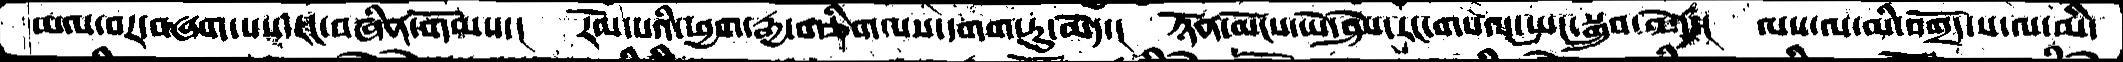ཡལ་བར་བཞག་པས་རང་བཞིན་གོམས་།  རོལ་པའི་ཕྱག་རྒྱ་གཅིག་པས་དགག་ཏུ་མེད་།  ཉོན་མོངས་ཡེ་ཤེས་རང་གསལ་སྤང་སྒྲུབ་མེད་།  ལས་ལ་མི་བགྲོད་ས་ལ་མི་
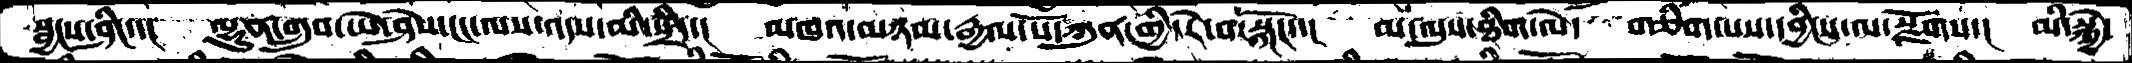སྦྱངས་ཤིང་་།  ལྷུན་གྲུབ་ཡེ་ཤེས་ངང་ལས་འདས་མི་སྲིད་།  མཁའ་མཉམ་རྒྱལ་པོ་ཀུན་གྱི་རེ་བ་སྐོང་་།  མ་ལུས་ཐིག་ལེ་  གཅིག་པས་དབྱིངས་ལ་སྫོགས་།  མི་སྐྱེ་
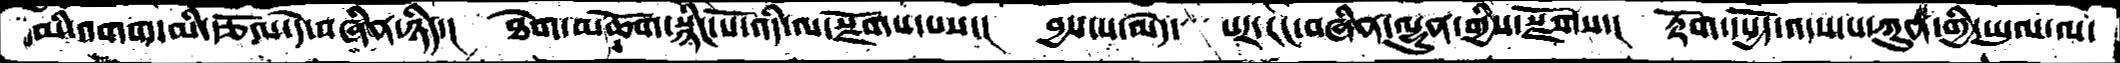མི་འགག་མི་རྩོལ་དེ་བཞིན་ཉིད་།  ཐེག་མཆོག་སྙིང་པོ་འདི་ལ་སྫོགས་པས་།  བྱས་པ་མེད་པར་རང་བཞིན་ལྷུན་གྱིས་སྫོགས་།  རྟོག་དཔྱོད་འདས་པ་ཀུན་གྱི་ཡུལ་ལ་
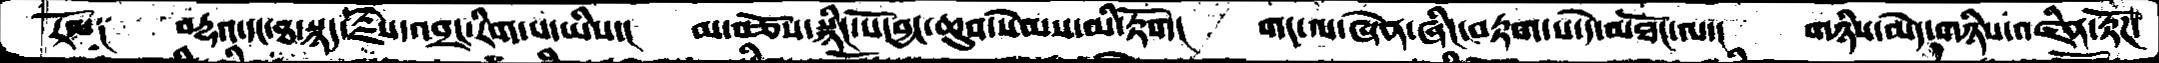རོལ༑   བརྡའ་དང་ཐ་སྙད་རྗེས་འབྲང་རིག་པ་ཡིས་།  མ་བཅོས་སྙིང་པོ་བྱང་ཆུབ་སེམས་མི་རྟོག།  གང་ལ་ཞེན་ཞིང་བརྟག་པ་དེ་མཐོང་ལ་།  གཉིས་མེད་གཉིས་འཛིན་རྟོཌ་
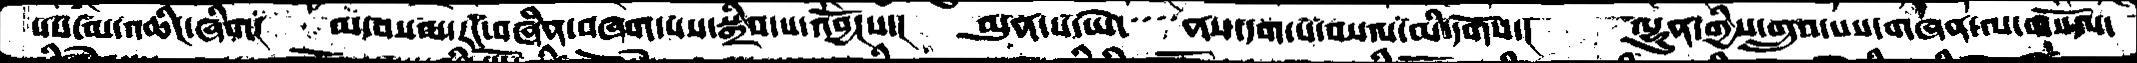པས་མ་འཆིང་ཞིག།   མ་བསམ་རང་བཞིན་བཞག་པས་སྒྲིབ་པ་འབྱོངས་།  མུན་པ་ཡེ་  ནས་དག་པ་བསལ་མི་དགོས་།  ལྷུན་གྱིས་གྲུབ་པས་གཞན་ལ་གསོལ་
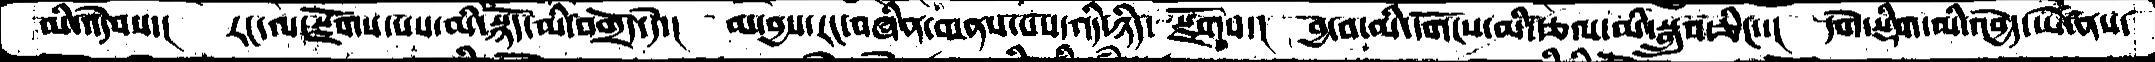མི་འདེབས་།   རང་ལ་སྫོགས་པས་མི་སྙོད་མི་བགྲོད་དེ་།  མ་བྱས་རང་བཞིན་གནས་པས་འདི་ཉིད་ སྫོགས་།  བྱ་བ་མི་དགོངས་མི་རྩལ་མི་སྒྲུབ་ཅིང་་།  དགེ་སྡིག་མི་འབྱེད་ཡེ་ནས་
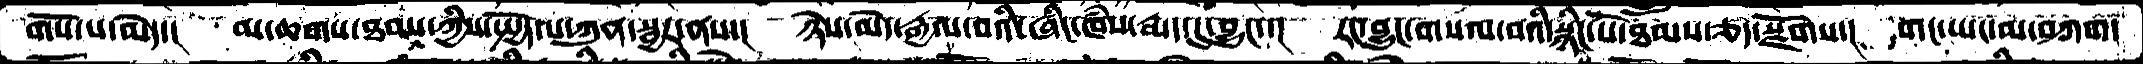གོས་པ་མེད་།    མ་ཆགས་ཐབས་ཀྱིས་སྤྱོད་པ་ཀུན་སྦྱར་ནས་།  ཉེས་མེད་རྒྱལ་བའི་ཞིང་ཁཾས་རྨད་དུ་བྱུང་་།  རང་བྱུང་གསལ་བའི་སྙིང་པོ་ཐམས་ཅད་སྫོགས་།  གང་ཡང་མ་བཀག་
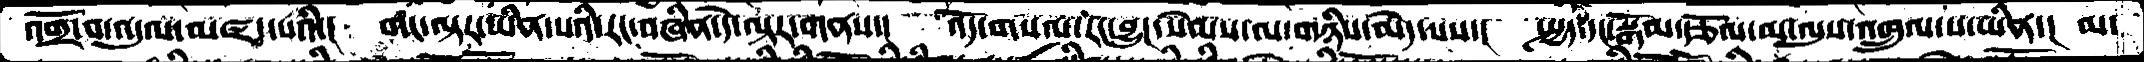འགྲོ་བ་འདུལ་མཛད་པའི་།  གང་ལྟར་ཡིན་པའི་རང་བཞིན་དེ་ལྟར་གནས་།  འོད་གསལ་རང་བྱུང་སེམས་ལ་གཉིས་མེད་པས་།  སྤྱད་དང་སྒོམ་རྩོལ་མ་ལུས་འཁྲུལ་པ་ཡིན་།  མ་
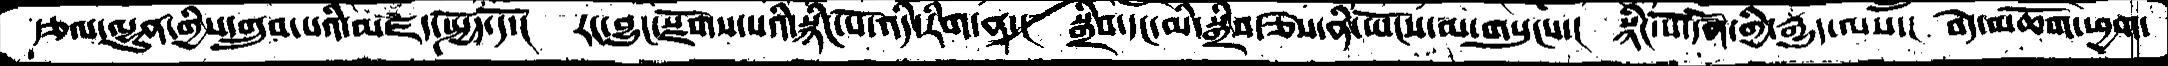རྩལ་ལྷུན་གྱིས་གྲུབ་པའི་མཛད་སྤྱོད་དོ་།  རང་བྱུང་སྫོགས་པའི་སྙིང་པོ་འདི་རིག་ན་།  སྒྲིབ་དང་མི་སྒྲིབ་ཅེས་ནི་ཡོངས་མ་གསུངས་།  སྙིང་པོ་དོན་གྱི་རྒྱུད་ལས་།  བདེ་མཆོག་ཕྱག་
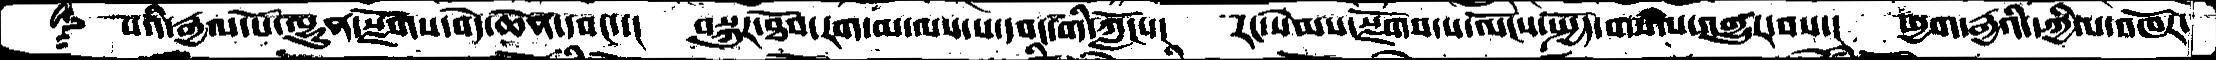པའི་རྒྱལ་པོ་ལྷུན་སྫོགས་བདེ་ཆེན་དབང་། བསྐུར་ཐོབ་རག་མ་ལས་པ་དབང་གི་ཀློང་་། རང་སེམས་སྫོགས་པ་ལོངས་སྤྱོད་གསལ་འགྱུར་བས་། ཕྱག་རྒྱའི་དཀྱིལ་འཁོར་
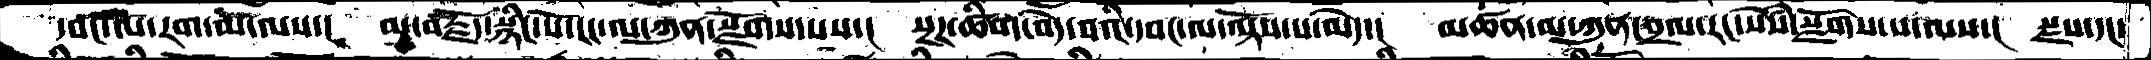དབང་ལ་རག་མ་ལས་།   མ་བརྗོད་སྙིང་པོ་ངང་ལ་ཀུན་སྫོགས་པས་།  སྔཌ་ཚིག་བདེ་བའི་དབང་ལ་ལྟོས་པ་མེད་།  མཚན་མ་ཀུན་བྲལ་རང་སེཾས་སྫོགས་པ་ལས་།  སྫས་དང་
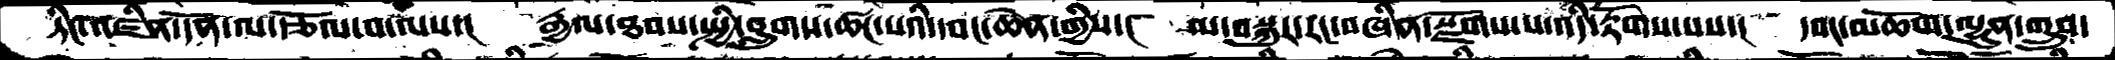ཏིང་འཛིན་དོན་ལ་རྩོལ་བ་ལས་།  རྒྱལ་ཐབས་སྤྱི་བླུགས་ཚང་པའི་དབང་ཆེན་གྱིས་།  མ་བསྐུར་རང་བཞིན་སྫོགས་པ་འདི་རྟོགས་པས་།  དབང་མཆོག་ལྷུན་གྲུབ་
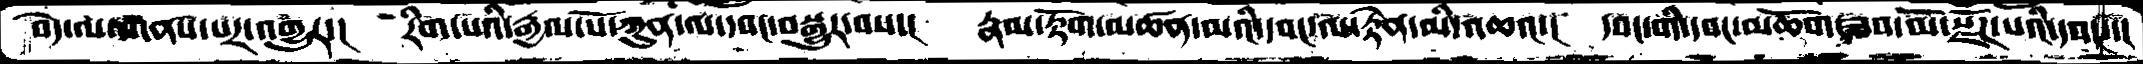བདེ་ལ་གནས་པར་འགྱུར་།  རིག་པའི་རྒྱལ་པོ་ཀུན་ལ་དབང་བསྒྱུར་བས་།  རྣམ་རྟོག་མཚན་མའི་དབང་ལ་རྟེན་མི་འཆའ་།  དབང་གི་དབང་མཆོག་ཟབ་མོ་སྫོཌ་པའི་དབང་།
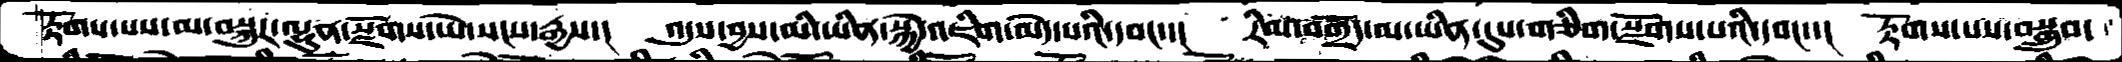རྟོགས་པས་མ་བསྐུར་ལྷུན་སྫོགས་ཡེ་སངས་རྒྱས་།  འདུས་བྱས་མི་ཡིན་སྐྱེ་འཇིག་མེད་པའི་དབང་་།  རིམ་བགྲོད་མ་ཡིན་དུས་གཅིག་སྫོགས་པའི་དབང་་།  རྟོགས་པས་བསྒྲུབ་
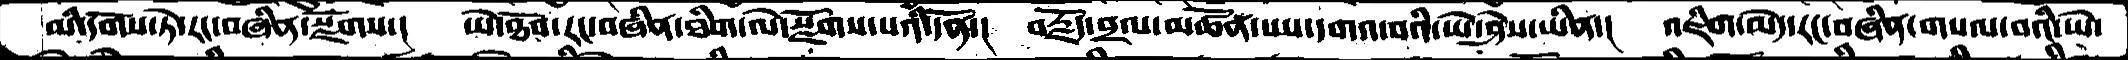མི་དགོས་ཏེ་རང་བཞིན་སྫོགས་།  ཡེ་ཐོབ་རང་བཞིན་ཐིག་ལེ་སྫོགས་པའི་དོན་།  བརྗོད་བྲལ་མཚོན་པས་དགའ་བའི་ཡེ་ཤེས་ཡིན་།  འཇིག་མེད་རང་བཞིན་གསལ་བའི་ཡེ་
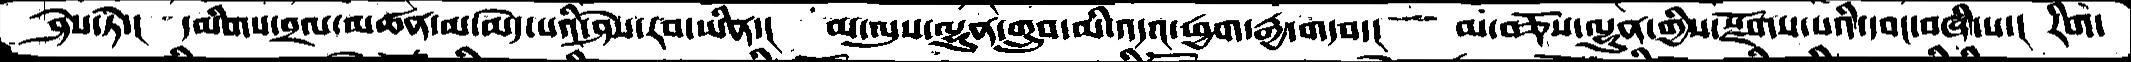ཤེས་ཏེ་།   དམིགས་བྲལ་མཚན་མ་མེད་པའི་ཤེས་རབ་ཡིན་།  མ་ལུས་ལྷུན་གྲུབ་མི་འདའ་ཕྱག་རྒྱ་གདབ་།  མ་བཅོས་ལྷུན་གྱིས་སྫོགས་པའི་དབང་བཞི་པ་།  རིག་
